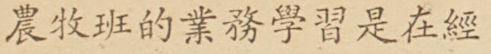農牧班的業務學習是在經
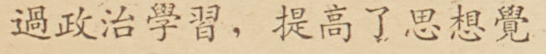過政治學習，提高了思想覺
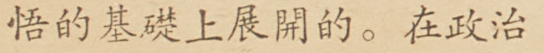悟的基礎上展開的。在政治
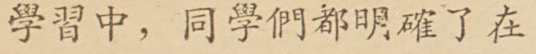學習中，同學們都明確了在
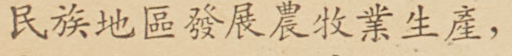民族地區發展農牧業生產，
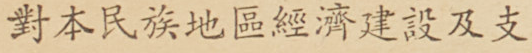對本民族地區經濟建設及支
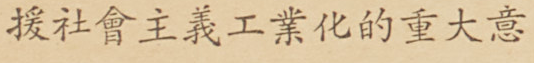援社會主義工業化的重大意
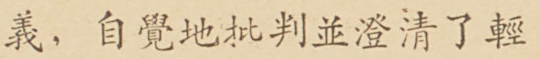義，自覺地批判並澄清了輕
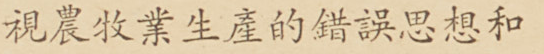視農牧業生產的錯誤思想和
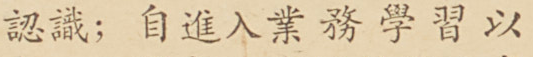認識；自進入業務學習以
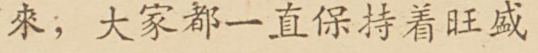來，大家都一致保持着旺盛
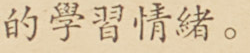的學習情緒。
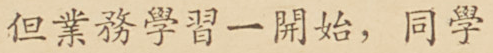但業務學習一開始，同學
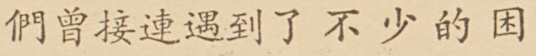們曾接連遇到了不少的困
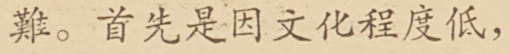難。首先是因文化程度低，
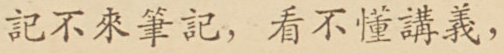記不來筆記，看不懂講義，
